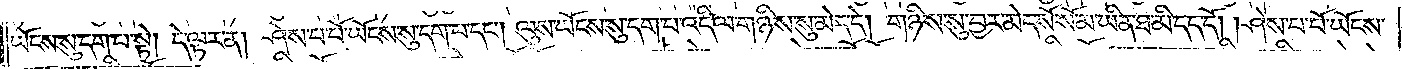ཡོངས་སུ་དག་པ་སྟེ། དེ་ལྟར་ན། ཤེས་པ་པོ་ཡོངས་སུ་དག་པ་དང༌། ལུས་ཡོངས་སུ་དག་པ་འདི་ལ་གཉིས་སུ་མེད་དེ། གཉིས་སུ་བྱར་མེད་སོ་སོ་མ་ཡིན་ཐ་མི་དད་དོ། །ཤེས་པ་པོ་ཡོངས་
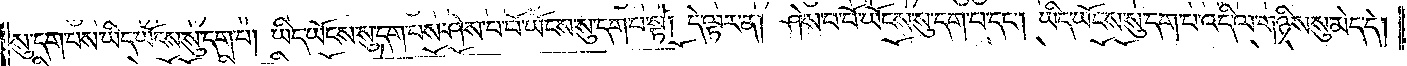སུ་དག་པས་ཡིད་ཡོངས་སུ་དག་པ། ཡིད་ཡོངས་སུ་དག་པས་ཤེས་པ་པོ་ཡོངས་སུ་དག་པ་སྟེ། དེ་ལྟར་ན། ཤེས་པ་པོ་ཡོངས་སུ་དག་པ་དང༌། ཡིད་ཡོངས་སུ་དག་པ་འདི་ལ་གཉིས་སུ་མེད་དེ།
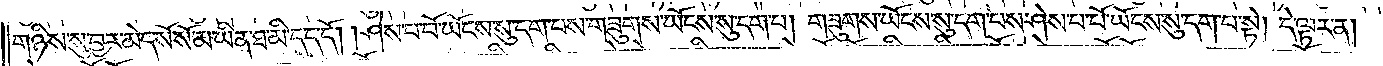གཉིས་སུ་བྱར་མེད་སོ་སོ་མ་ཡིན་ཐ་མི་དད་དོ། །ཤེས་པ་པོ་ཡོངས་སུ་དག་པས་གཟུགས་ཡོངས་སུ་དག་པ། གཟུགས་ཡོངས་སུ་དག་པས་ཤེས་པ་པོ་ཡོངས་སུ་དག་པ་སྟེ། དེ་ལྟར་ན།
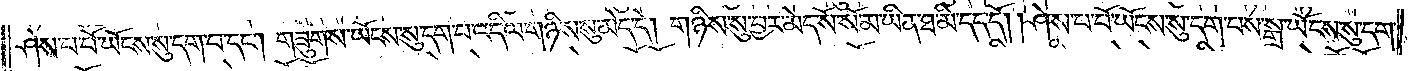ཤེས་པ་པོ་ཡོངས་སུ་དག་པ་དང༌། གཟུགས་ཡོངས་སུ་དག་པ་འདི་ལ་གཉིས་སུ་མེད་དེ། གཉིས་སུ་བྱར་མེད་སོ་སོ་མ་ཡིན་ཐ་མི་དད་དོ། །ཤེས་པ་པོ་ཡོངས་སུ་དག་པས་སྒྲ་ཡོངས་སུ་དག་
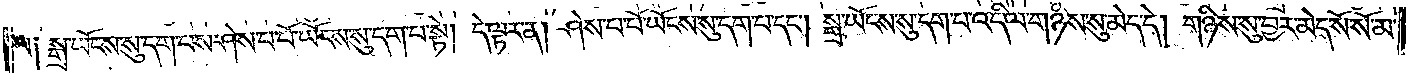པ༑ སྒྲ་ཡོངས་སུ་དག་པས་ཤེས་པ་པོ་ཡོངས་སུ་དག་པ་སྟེ། དེ་ལྟར་ན། ཤེས་པ་པོ་ཡོངས་སུ་དག་པ་དང༌། སྒྲ་ཡོངས་སུ་དག་པ་འདི་ལ་གཉིས་སུ་མེད་དེ། གཉིས་སུ་བྱར་མེད་སོ་སོ་མ་
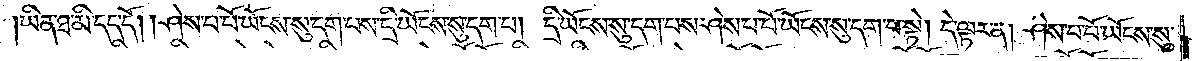ཡིན་ཐ་མི་དད་དོ། །ཤེས་པ་པོ་ཡོངས་སུ་དག་པས་དྲི་ཡོངས་སུ་དག་པ། དྲི་ཡོངས་སུ་དག་པས་ཤེས་པ་པོ་ཡོངས་སུ་དག་པ་སྟེ། དེ་ལྟར་ན། ཤེས་པ་པོ་ཡོངས་སུ་
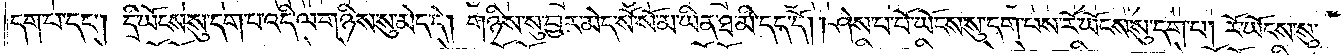དག་པ་དང༌། དྲི་ཡོངས་སུ་དག་པ་འདི་ལ་གཉིས་སུ་མེད་དེ། གཉིས་སུ་བྱར་མེད་སོ་སོ་མ་ཡིན་ཐ་མི་དད་དོ། །ཤེས་པ་པོ་ཡོངས་སུ་དག་པས་རོ་ཡོངས་སུ་དག་པ། རོ་ཡོངས་སུ་
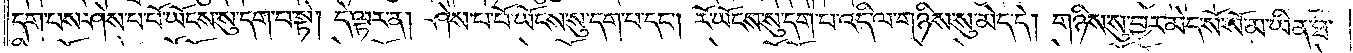དག་པས་ཤེས་པ་པོ་ཡོངས་སུ་དག་པ་སྟེ། དེ་ལྟར་ན། ཤེས་པ་པོ་ཡོངས་སུ་དག་པ་དང༌། རོ་ཡོངས་སུ་དག་པ་འདི་ལ་གཉིས་སུ་མེད་དེ། གཉིས་སུ་བྱར་མེད་སོ་སོ་མ་ཡིན་ཐ་
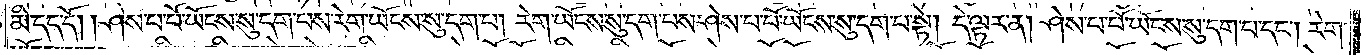མི་དད་དོ༑ ༑ཤེས་པ་པོ་ཡོངས་སུ་དག་པས་རེག་ཡོངས་སུ་དག་པ། རེག་ཡོངས་སུ་དག་པས་ཤེས་པ་པོ་ཡོངས་སུ་དག་པ་སྟེ། དེ་ལྟར་ན། ཤེས་པ་པོ་ཡོངས་སུ་དག་པ་དང༌། རེག་
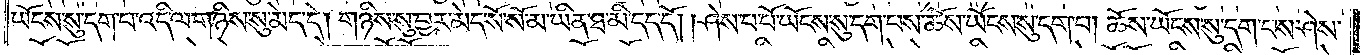ཡོངས་སུ་དག་པ་འདི་ལ་གཉིས་སུ་མེད་དེ། གཉིས་སུ་བྱར་མེད་སོ་སོ་མ་ཡིན་ཐ་མི་དད་དོ། །ཤེས་པ་པོ་ཡོངས་སུ་དག་པས་ཆོས་ཡོངས་སུ་དག་པ། ཆོས་ཡོངས་སུ་དག་པས་ཤེས་
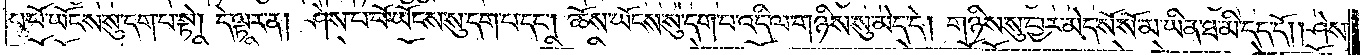པ་པོ་ཡོངས་སུ་དག་པ་སྟེ། དེ་ལྟར་ན། ཤེས་པ་པོ་ཡོངས་སུ་དག་པ་དང༌། ཆོས་ཡོངས་སུ་དག་པ་འདི་ལ་གཉིས་སུ་མེད་དེ། གཉིས་སུ་བྱར་མེད་སོ་སོ་མ་ཡིན་ཐ་མི་དད་དོ། །ཤེས་
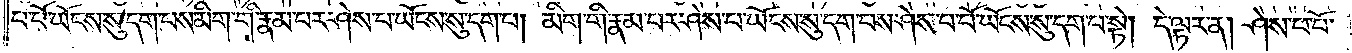པ་པོ་ཡོངས་སུ་དག་པས་མིག་གི་རྣམ་པར་ཤེས་པ་ཡོངས་སུ་དག་པ། མིག་གི་རྣམ་པར་ཤེས་པ་ཡོངས་སུ་དག་པས་ཤེས་པ་པོ་ཡོངས་སུ་དག་པ་སྟེ། དེ་ལྟར་ན། ཤེས་པ་པོ་
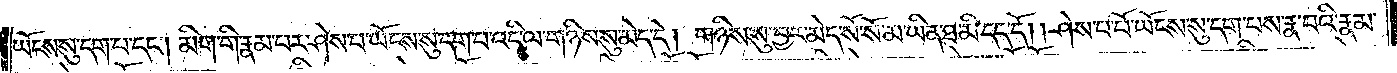ཡོངས་སུ་དག་པ་དང༌། མིག་གི་རྣམ་པར་ཤེས་པ་ཡོངས་སུ་དག་པ་འདི་ལ་གཉིས་སུ་མེད་དེ། གཉིས་སུ་བྱར་མེད་སོ་སོ་མ་ཡིན་ཐ་མི་དད་དོ། །ཤེས་པ་པོ་ཡོངས་སུ་དག་པས་རྣ་བའི་རྣམ་
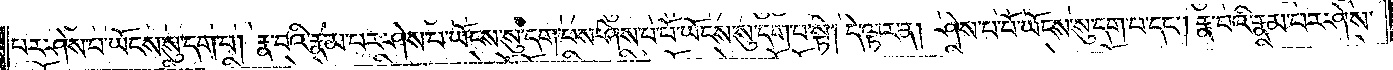པར་ཤེས་པ་ཡོངས་སུ་དག་པ། རྣ་བའི་རྣམ་པར་ཤེས་པ་ཡོངས་སུ་དག་པས་ཤེས་པ་པོ་ཡོངས་སུ་དག་པ་སྟེ། དེ་ལྟར་ན། ཤེས་པ་པོ་ཡོངས་སུ་དག་པ་དང༌། རྣ་བའི་རྣམ་པར་ཤེས་
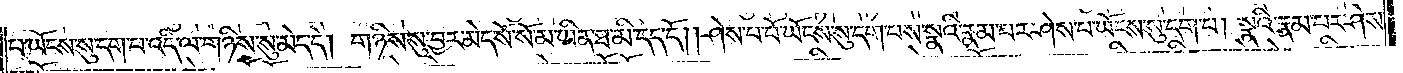པ་ཡོངས་སུ་དག་པ་འདི་ལ་གཉིས་སུ་མེད་དེ། གཉིས་སུ་བྱར་མེད་སོ་སོ་མ་ཡིན་ཐ་མི་དད་དོ། །ཤེས་པ་པོ་ཡོངས་སུ་དག་པས་སྣའི་རྣམ་པར་ཤེས་པ་ཡོངས་སུ་དག་པ། སྣའི་རྣམ་པར་ཤེས་
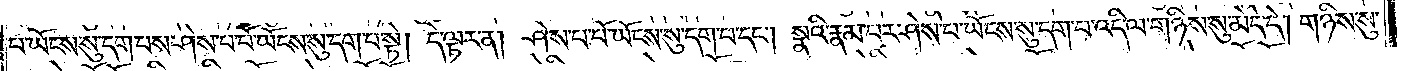པ་ཡོངས་སུ་དག་པས་ཤེས་པ་པོ་ཡོངས་སུ་དག་པ་སྟེ། དེ་ལྟར་ན། ཤེས་པ་པོ་ཡོངས་སུ་དག་པ་དང༌། སྣའི་རྣམ་པར་ཤེས་པ་ཡོངས་སུ་དག་པ་འདི་ལ་གཉིས་སུ་མེད་དེ། གཉིས་སུ་
